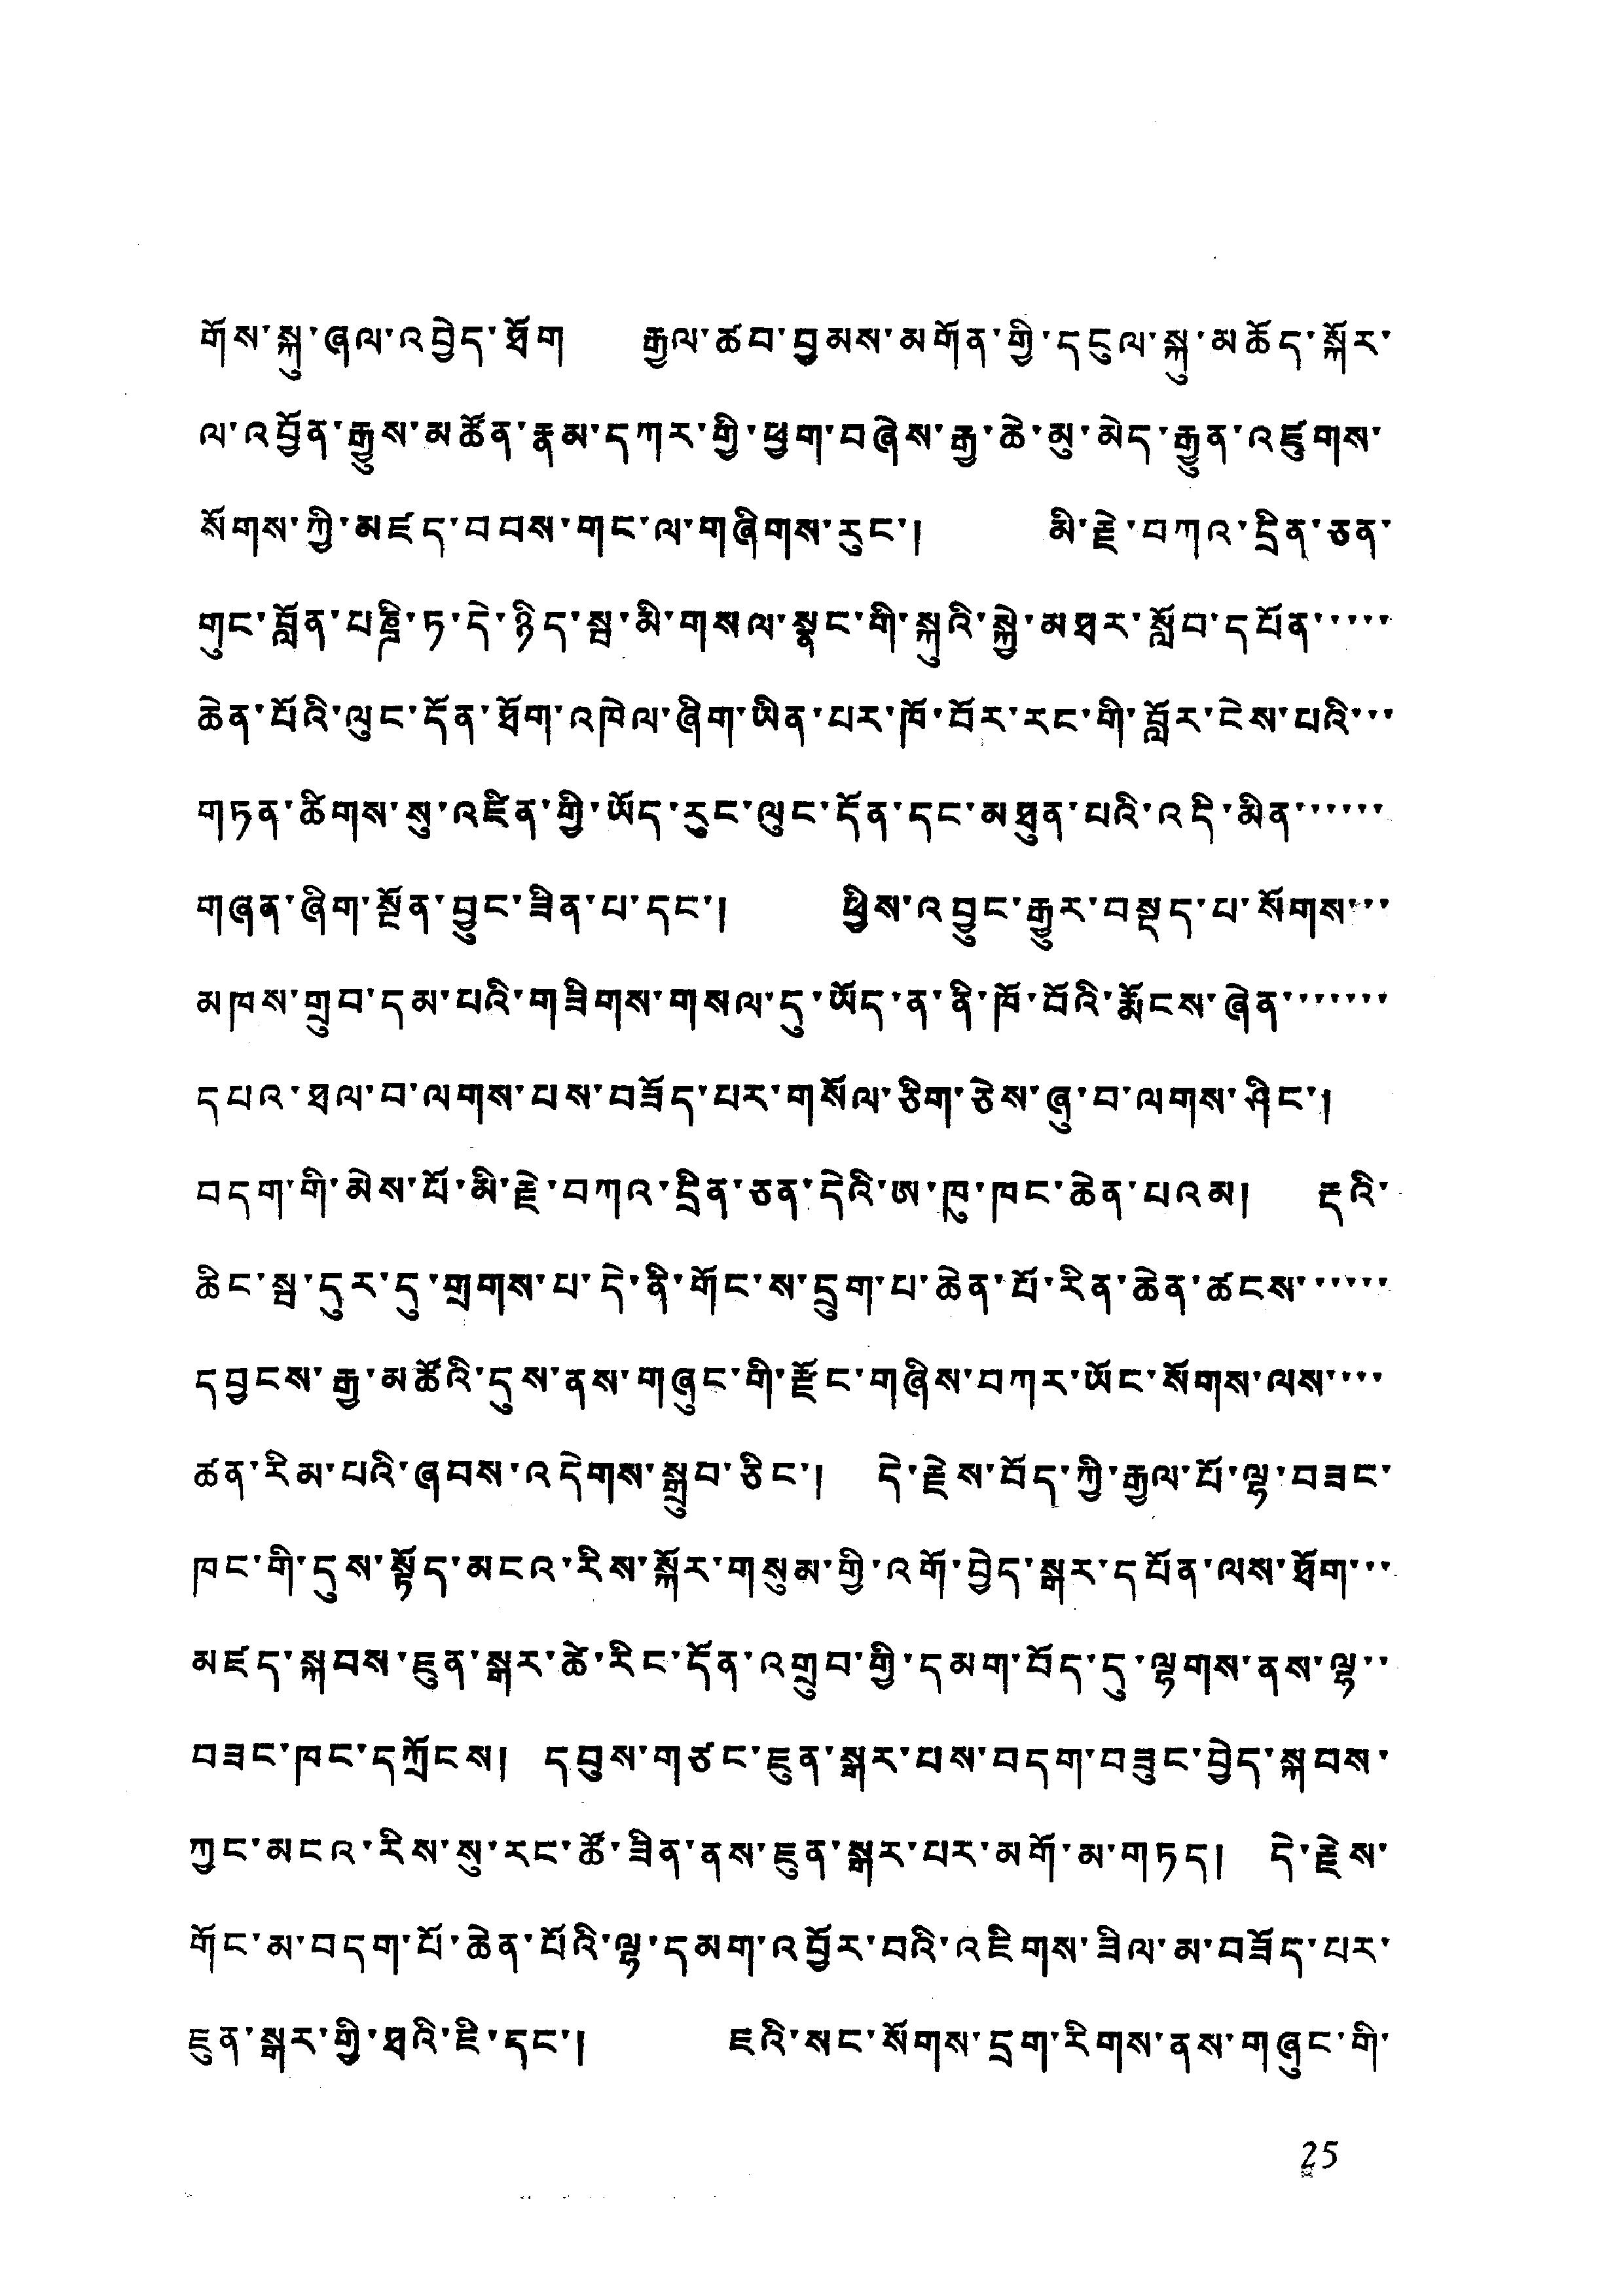གོས་སྐུ་ཞལ་འབྱེད་ཐོག རྒྱལ་ཚབ་བྱམས་མགོན་གྱི་དངུལ་སྐུ་མཆོད་སྐོར་
ལ་འབྱོན་རྒྱུས་མཚོན་རྣམ་དཀར་གྱི་ཕྱག་བཞེས་རྒྱ་ཆེ་མུ་མེད་རྒྱུན་འཛུགས་
སོགས་ཀྱི་མཛད་བབས་གང་ལ་གཞིགས་རུང་། མི་རྗེ་བཀའ་དྲིན་ཅན་
གུང་བློན་པཎྜི་ཏ་དེ་ཉིད་སྦ་མི་གསལ་སྣང་གི་སྐུའི་སྐྱེ་མཐར་སློབ་དཔོན་་་་་
ཆེན་པོའི་ལུང་དོན་ཐོག་འཁེལ་ཞིག་ཡིན་པར་ཁོ་བོར་རང་གི་བློར་ངེས་པའི་་་
གཏན་ཚིགས་སུ་འཛིན་གྱི་ཡོད་རུང་ལུང་དོན་དང་མཐུན་པའི་འདི་མིན་་་་་་
གཞན་ཞིག་སྔོན་བྱུང་ཟིན་པ་དང་། ཕྱིས་འབྱུང་རྒྱུར་བསྡད་པ་སོགས་་་
མཁས་གྲུབ་དམ་པའི་གཟིགས་གསལ་དུ་ཡོད་ན་ནི་ཁོ་བོའི་རྨོངས་ཞེན་་་་་་་
དཔའ་ཐལ་བ་ལགས་པས་བཟོད་པར་གསོལ་ཅིག་ཅེས་ཞུ་བ་ལགས་ཤིང་།
བདག་གི་མེས་པོ་མི་རྗེ་བཀའ་དྲིན་ཅན་དེའི་ཨ་ཁུ་ཁང་ཆེན་པའམ། རྡའི་
ཆིང་སྦ་དུར་དུ་གྲགས་པ་དེ་ནི་གོང་ས་དྲུག་པ་ཆེན་པོ་རིན་ཆེན་ཚངས་་་་་་
དབྱངས་རྒྱ་མཚོའི་དུས་ནས་གཞུང་གི་རྫོང་གཞིས་བཀར་ཡོང་སོགས་ལས་་་་
ཚན་རིམ་པའི་ཞབས་འདེགས་སྒྲུབ་ཅིང་། དེ་རྗེས་བོད་ཀྱི་རྒྱལ་པོ་ལྷ་བཟང་
ཁང་གི་དུས་སྟོད་མངའ་རིས་སྐོར་གསུམ་གྱི་འགོ་བྱེད་སྒར་དཔོན་ལས་ཐོག་་་
མཛད་སྐབས་ཇུན་སྒར་ཚེ་རིང་དོན་འགྲུབ་གྱི་དམག་བོད་དུ་ལྷགས་ནས་ལྷ་་
བཟང་ཁང་དཀྲོངས། དབུས་གཙང་ཇུན་སྒར་པས་བདག་བཟུང་བྱེད་སྐབས་
ཀྱང་མངའ་རིས་སུ་རང་ཚོ་ཟིན་ནས་ཇུན་སྒར་པར་མགོ་མ་གཏད། དེ་རྗེས་
གོང་མ་བདག་པོ་ཆེན་པོའི་ལྷ་དམག་འབྱོར་བའི་འཇིགས་ཟིལ་མ་བཟོད་པར་
ཇུན་སྒར་གྱི་ཐའི་ཇི་དང་། ཇའི་སང་སོགས་དྲག་རིགས་ནས་གཞུང་གི་
25
